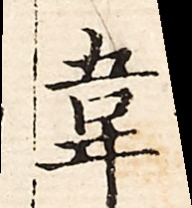韋
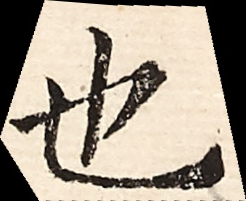也
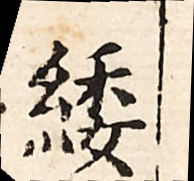緌
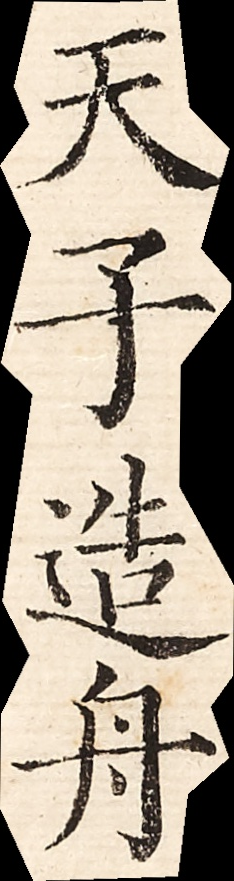天子造舟
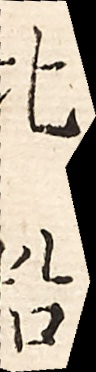比船
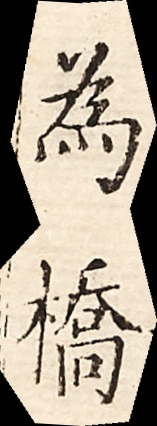為橋
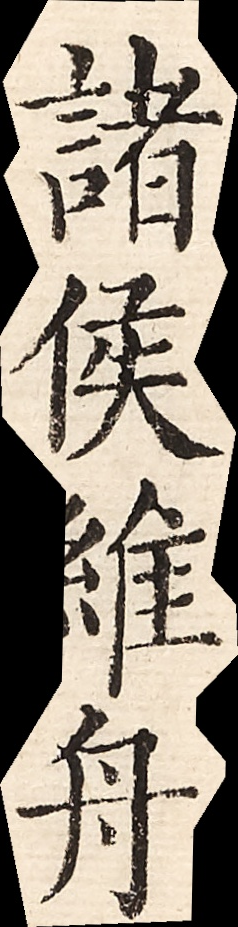諸侯維舟
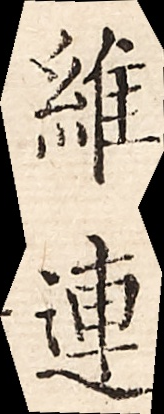維連
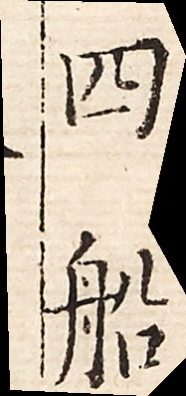四船
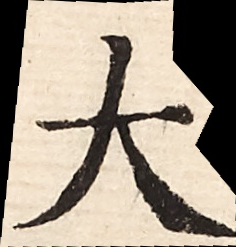大
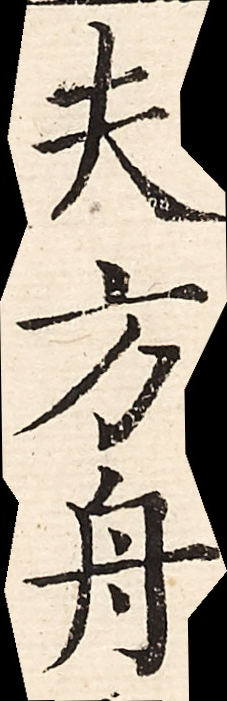夫方舟
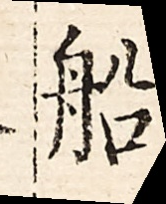船
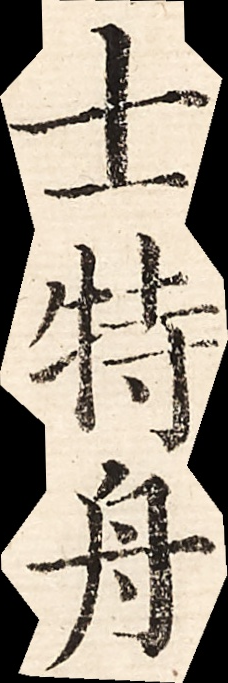土特舟
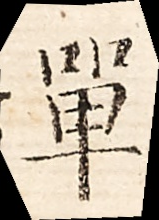單
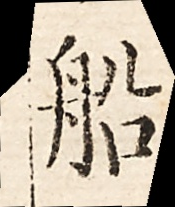船
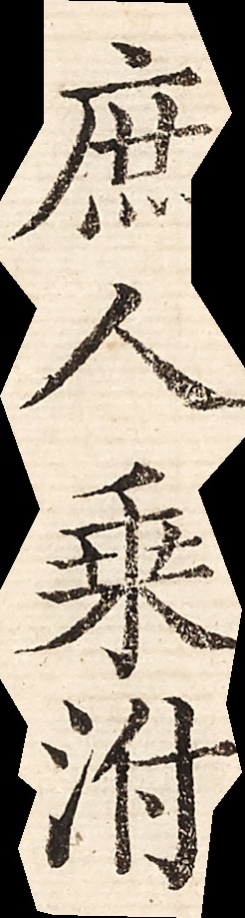庶人乘泭
